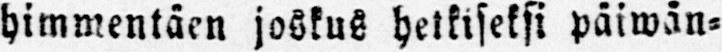himmentäen joskus hetkiseksi päiwän-
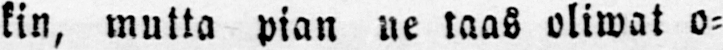kin, mutta pian ne taas oliwat o-
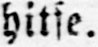hitse.
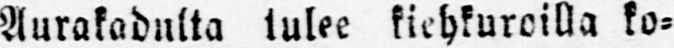Aurakadulta tulee kiehkuroilla ko-
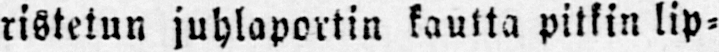ristetun juhlaportin kautta pilkin lip-
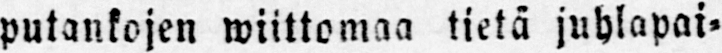putankojen wiittomaa tietä juhlapai-
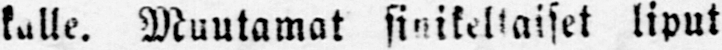kalle. Muutamat sinikeltaiset liput
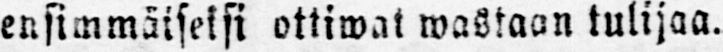ensimmäiseksi ottiwat wastaon tulijaa.
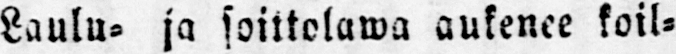Laulu- ja soittolawa aukenee koil-
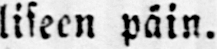liseen päin.
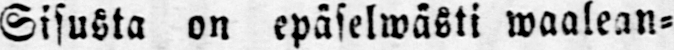Sisusta on epäselwästi waalean-
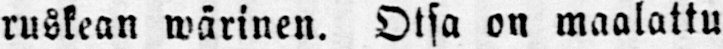ruskean wäkinen. Otsa on maalattu
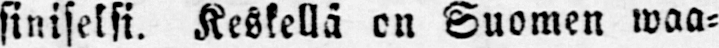siniseksi. Keskellä on Suomen waa-
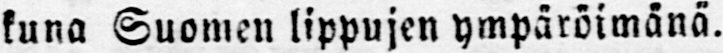kuna Suomen lippujen ympäröimänä.
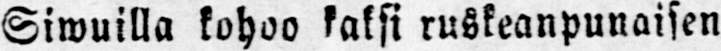Siwuilla kohoo kaksi ruskeanpunaisen
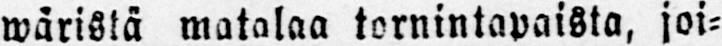wäristä matalaa tornintapaista, joi-
